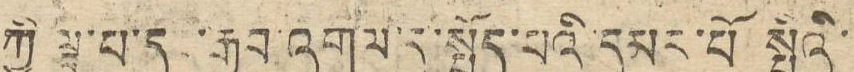ཀྱི ལྟ་བ་དང་རྒྱབ་འགལ་དུ་སྤྱོད་པའི་དམར་པོ སྤྱིའི་
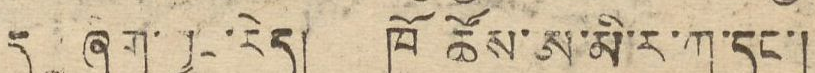དགྲ་ཞིག་ཀྱང་རེད། ཁོ ཚོས་ཨ་མི་རི་ཀ་དང་།
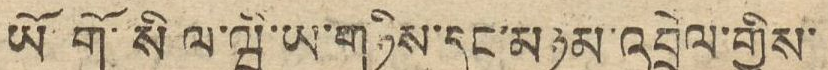ཡོ་གོ་སིལ་ཝི་ཡ་གཉིས་དང་མཉམ་འབྲེལ་གྱིས་
